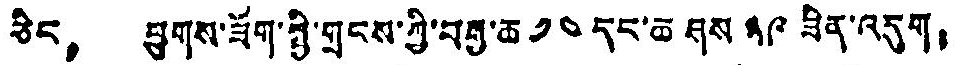ཅིང， ཕྱུགས་ཟོག་སྤྱི་གྲངས་ཀྱི་བརྒྱ་ཆ ༡༤ དང་ཆ ཤས ༣༩ ཟིན་འདུག！
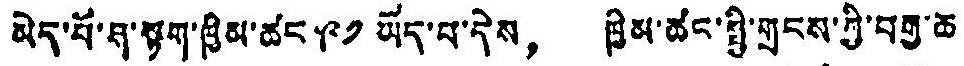མེད་པོ་ཤ་སྟག་ཁྱིམ་ཚང ༩༡ ཡོད་པ་དེས， ཁྱིམ་ཚང་སྤྱི་གྲངས་ཀྱི་བརྒྱ་ཆ
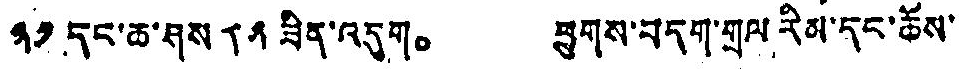༣༡ དང་ཆ་ཤས ༨༢ ཟིན་འདུག。 ཕྱུགས་བདག་གྲལ རིམ་དང་ཆོས་
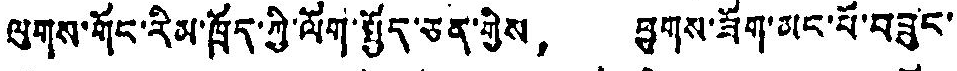ལུགས་གོང་རིམ་ཁྲོད་ཀྱི་ལོག་སྤྱོད་ཅན་གྱིས， ཕྱུགས་ཟོག་མང་པོ་བཟུང་
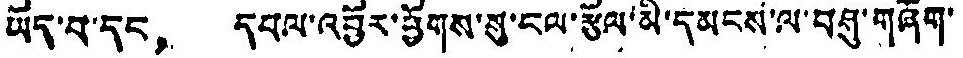ཡོད་པ་དང， དཔལ་འབྱོར་ཕྱོགས་སུ་ངལ་རྩོལ་མི་དམངས་ལ་བཤུ་གཞོག་
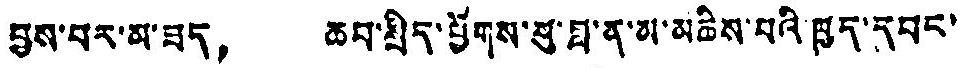བྱས་པར་མ་ཟད， ཆབ་སྲིད་ཕྱོགས་སུ་བླ་ན་མ་མཆིས་པའི་ཁྱད་དབང་
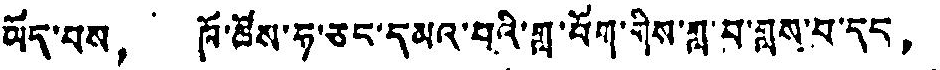ཡོད་པས， ཁོ་ཚོས་ཧ་ཅང་དམའ་བའི་གླ་བོག་གིས་གླ་བ་གླས་པ་དང，
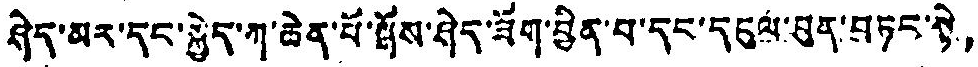ཤེད་མར་དང་སྐྱེད་ཀ་ཆེན་པོ་ཝོས་ཤེད་ཟོག་བྱིན་པ་དང་དངུལ་བུན་བཏང་སྟེ，
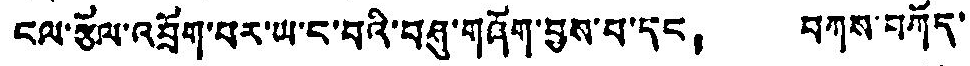ངལ་རྩོལ་འབྲོག་པར་ཡ་ང་བའི་བཤུ་གཞོག་བྱས་པ་དང， བཀས་བཀོད་
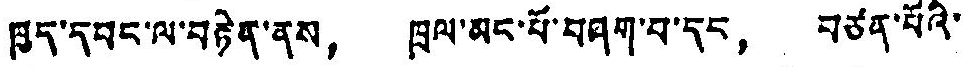ཁྱད་དབང་ལ་བརྟེན་ནས， ཁྲལ་མང་པོ་བཤག་པ་དང， བཙན་པོའི་
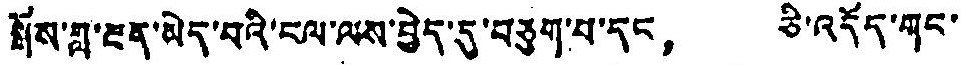སྒོས་གླ་རྔན་མེད་པའི་ངལ་ལས་བྱེད་དུ་བཅུག་པ་དང， ཅི་འདོད་གང་
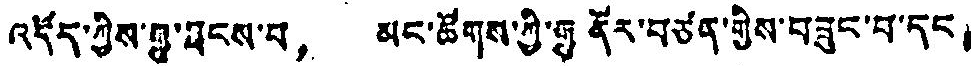འདོད་ཀྱིས་བྱུ་ཐངས་པ， མང་ཚོགས་ཀྱི་རྒྱུ ནོར་བཙན་གྱིས་བཟུང་བ་དང，
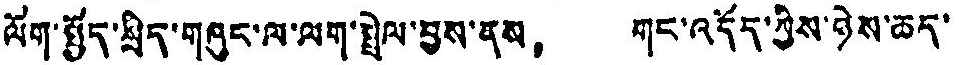ལོག་སྤྱོད་སྲིད་གཞུང་ལ་ལག་སྤེལ་བྱས་ནས， གང་འདོད་ཀྱིས་ཉེས་ཆད་
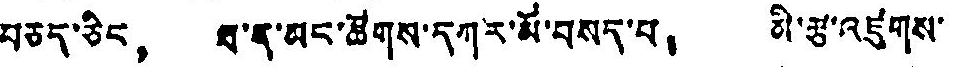བཅད་ཅིང， ཐ་ན་མང་ཚོགས་དཀར་མོ་བསད་པ， མི་རྩ་འཛུགས་
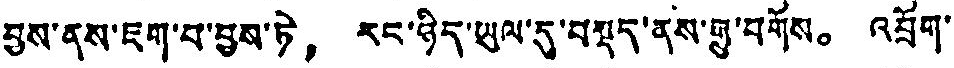བྱས་ནས་ཇག་པ་བྱས་ཏེ， རང་ཉིད་ཡུལ་དུ་བསྡད་ནས་གྲུ་བགོས。 འབྲོག་
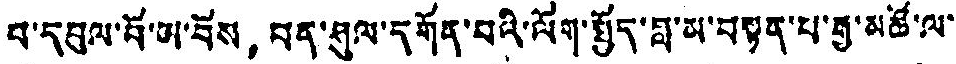པ་དབུལ་བོ་ཡ་བོས， བན་ཤུལ་དགོན་པའི་ལོག་སྤྱོད་བླ་མ་བསྟན་པ་རྒྱ་མཚོ་ལ་་
